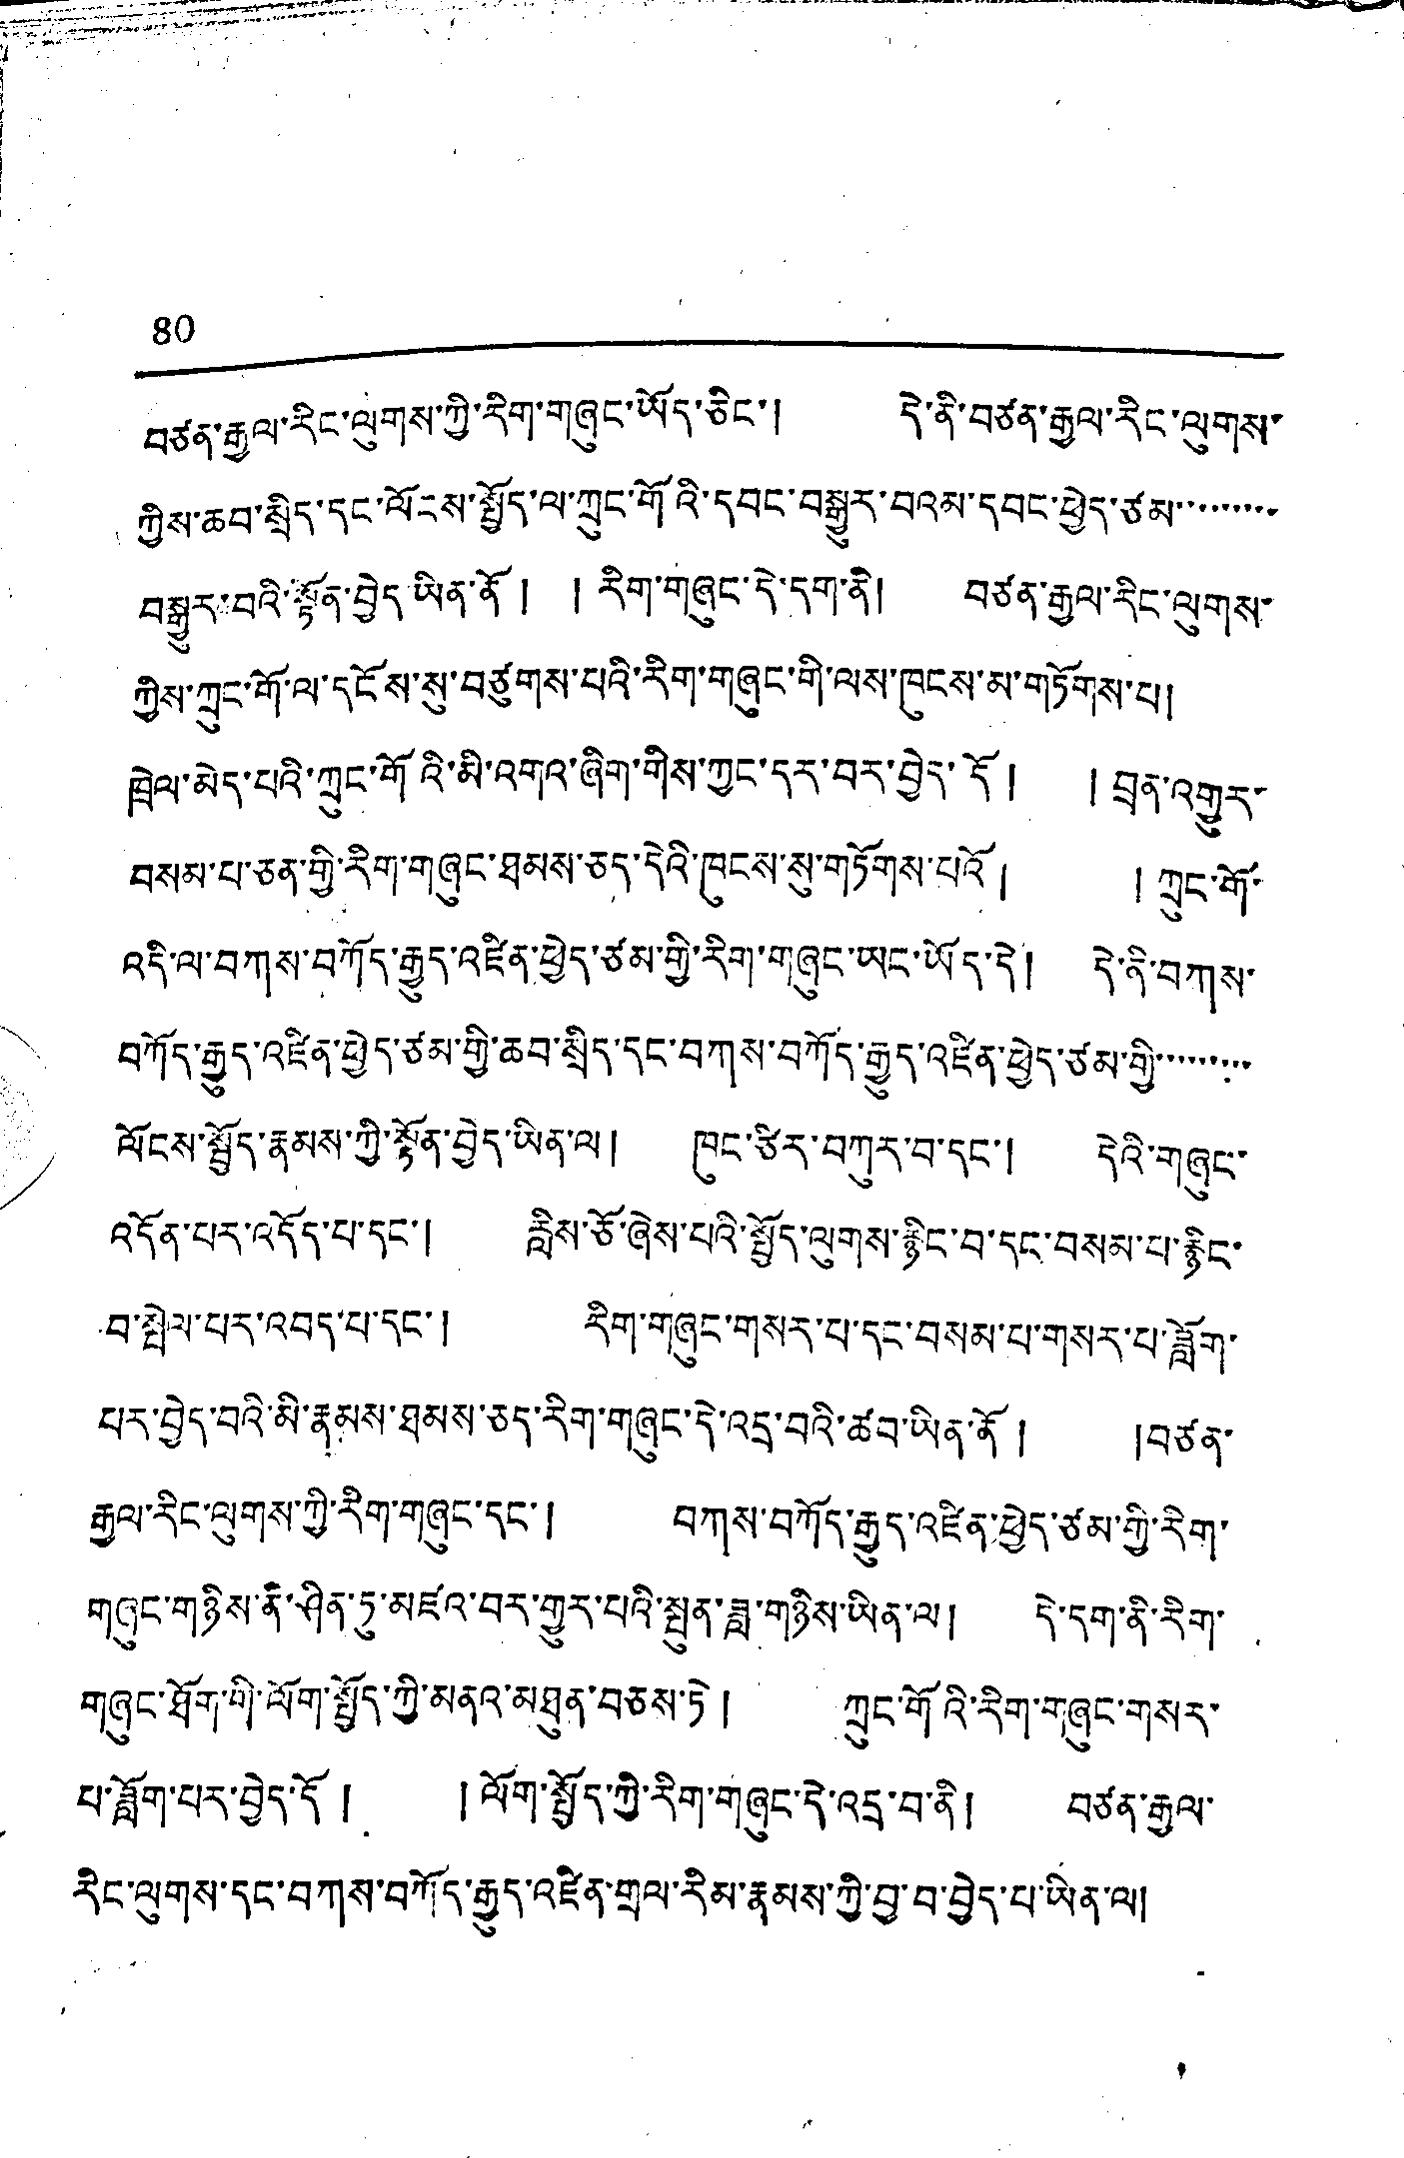80
བརྩན་རྒྱལ་རིང་ལུགས་ཀྱི་རིག་གཞུང་ཡོད་ཅིང་། དེ་ནི་བཙན་རྒྱལ་རིང་ལུགས་
རྱེས་ནུབ་སྲིད་དང་ལོངས་སྤྱོད་ལ་ཀྲུང་གོའི་དབང་བསྒྱུར་བའམ་དབང་ཕྱེད་ཙམ་་་་་་་་་
བསྒྱུར་བའི་སྟོན་བྱེད་ཡིན་ནོ ། །རིག་གཞུང་དེ་དག་ནི། བཙན་རྒྱལ་རིང་ལུགས་
ཀྱིས་ཀྲུང་གོ་ལ་དངོས་སུ་བཙུགས་པའི་རིག་གཞུང་གི་ལས་ཁུངས་མ་གཏོགས་པ།
ཁྲེལ་མེད་པའི་ཀྲུང་གོའི་མི་འགའ་ཞིག་གིས་ཀྱང་དར་བར་བྱེད་དོ། །བྲན་འགྱུར་
བསམ་པ་ཅན་གྱི་རིག་གཞུང་ཐམས་ཅད་དེའི་ཁུངས་སུ་གཏོགས་པའོ། །ཀྲུང་གོ་
འདི་ལ་བཀས་བཀོད་རྒྱུད་འཛིན་ཕྱེད་ཙམ་གྱི་རིག་གཞུང་ཡང་ཡོད་དེ། དེ་ནི་བཀས་
བཀོད་རྒྱུད་འཛིན་ཕྱེད་ཙམ་གྱི་ཆབ་སྲིད་དང་བཀས་བཀོད་རྒྱུད་འཛིན་ཕྱེད་ཙམ་གྱི་་་་་་་་་
ལོངས་སྦྱོད་རྣམས་ཀྱི་སྟོན་བྱེད་ཡིན་ལ། ཁང་ཙིར་བཀུར་བ་དང་། དེའི་གཞུང་
འདོན་པར་འདོད་པ་དང་། རླིས་ཅོ་ཞེས་པའི་སྤྱོད་ལུགས་རྙིང་བ་དང་བསམ་པ་རྙིང་
བྱ་སྤེལ་པར་འབད་པ་དང་། རིག་གཞུང་གསར་པ་དང་བསམ་པ་གསར་པ་ཟློག་
པར་བྱེད་བའི་མི་རྣམས་ཐམས་ཅད་རིག་གཞུང་དེ་འདྲ་བའི་ཚབ་ཡིན་ནོ ། །བཙན་
རྒྱལ་རིང་ལུགས་ཀྱི་རིག་གཞུང་དང་། བཀས་བཀོད་རྒྱུད་འཛིན་ཕྱེད་ཙམ་གྱི་རིག་
གཞུང་གཉིས་ནི་ཤིན་ཏུ་མཛའ་བར་གྱུར་པའི་སྤུན་ཟླ་གཉིས་ཡིན་ལ། དེ་དག་ནི་རིག་
གཞུང་ཐོག་གི་ལོག་སྤྱོད་ཀྱི་མནའ་མཐུན་བཅས་ཏེ། ཀྲུང་གོའི་རིག་གཞུང་གསར་
པ་ཟློག་པར་བྱེད་དོ། །ལོག་སྤྱོད་ཀྱི་རིག་གཞུང་དེ་འདྲ་བ་ནི། བཙན་རྒྱལ་
རིང་ལུགས་དང་བཀས་བཀོད་རྒྱུད་འཛིན་གྲལ་རིམ་རྣམས་ཀྱི་བྱ་བ་བྱེད་པ་ཡིན་ལ།
